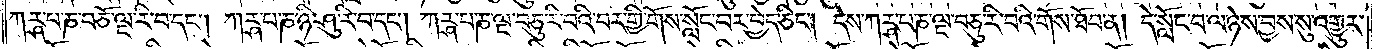ཀཪྴ་པ་ཎ་བཅོ་ལྔ་རི་བ་དང༌། ཀཪྴ་པ་ཎ་ཉི་ཤུ་རི་བ་དང༌། ཀཪྴ་པ་ཎ་ལྔ་བཅུ་རི་བའི་བར་གྱི་གོས་སློང་བར་བྱེད་ཅིང༌། དེས་ཀཪྴ་པ་ཎ་ལྔ་བཅུ་རི་བའི་གོས་ཐོབ་ན། དེ་སློང་བ་ལ་ཉེས་བྱས་སུ་འགྱུར་
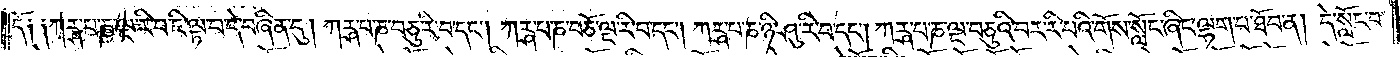དོ༑ ༑ཀཪྴ་པ་ཎ་ལྔ་རི་བ་ཇི་ལྟ་བ་དེ་བཞིན་དུ། ཀཪྴ་པ་ཎ་བཅུ་རི་བ་དང༌། ཀཪྴ་པ་ཎ་བཅོ་ལྔ་རི་བ་དང༌། ཀཪྴ་པ་ཎ་ཉི་ཤུ་རི་བ་དང༌། ཀཪྴ་པ་ཎ་ལྔ་བཅུའི་བར་རི་བའི་གོས་སློང་ཞིང་ལྷག་པ་ཐོབ་ན། དེ་སློང་བ་
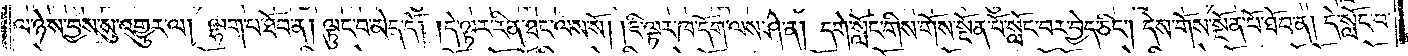ལ་ཉེས་བྱས་སུ་འགྱུར་ལ། ལྷག་པ་ཐོབ་ན། ལྟུང་བ་མེད་དོ། །དེ་ལྟར་རིན་ཐང་ལས་སོ། །ཇི་ལྟར་ཁ་དོག་ལས་ཤེ་ན། དགེ་སློང་གིས་གོས་སྔོན་པོ་སློང་བར་བྱེད་ཅིང༌། དེས་གོས་སྔོན་པོ་ཐོབ་ན། དེ་སློང་བ་
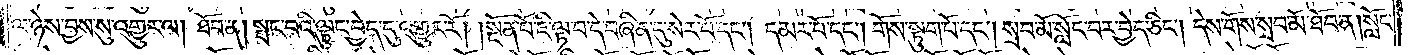ལ་ཉེས་བྱས་སུ་འགྱུར་ལ། ཐོབ་ན། སྤང་བའི་ལྟུང་བྱེད་དུ་འགྱུར་རོ། །སྔོན་པོ་ཇི་ལྟ་བ་དེ་བཞིན་དུ་སེར་པོ་དང༌། དམར་པོ་དང༌། གོས་སྟུག་པོ་དང༌། སྲབ་མོ་སློང་བར་བྱེད་ཅིང༌། དེས་གོས་སྲབ་མོ་ཐོབ་ན། སློང་
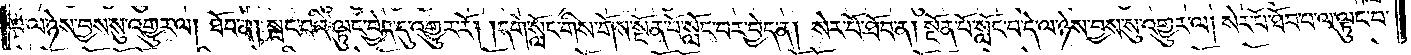བ་ལ་ཉེས་བྱས་སུ་འགྱུར་ལ། ཐོབ་ན། སྤང་བའི་ལྟུང་བྱེད་དུ་འགྱུར་རོ། །དགེ་སློང་གིས་གོས་སྔོན་པོ་སློང་བར་བྱེད་ན། སེར་པོ་ཐོབ་ན། སྔོན་པོ་སློང་བ་དེ་ལ་ཉེས་བྱས་སུ་འགྱུར་ལ། སེར་པོ་ཐོབ་པ་ལ་ལྟུང་བ་
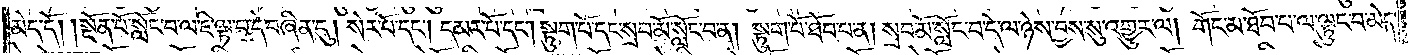མེད་དོ། །སྔོན་པོ་སློང་བ་ལ་ཇི་ལྟ་བ་དེ་བཞིན་དུ། སེར་པོ་དང༌། དམར་པོ་དང༌། སྟུག་པོ་དང་སྲབ་མོ་སློང་བ་ན། སྟུག་པོ་ཐོབ་པ་ན། སྲབ་མོ་སློང་བ་དེ་ལ་ཉེས་བྱས་སུ་འགྱུར་ལ། གོང་མ་ཐོབ་པ་ལ་ལྟུང་བ་མེད་
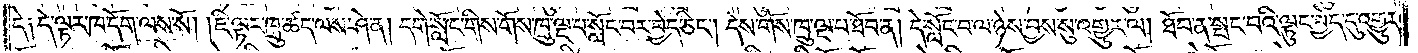དོ༑ དེ་ལྟར་ཁ་དོག་ལས་སོ། །ཇི་ལྟར་ཁྲུ་ཚད་ལས་ཤེ་ན། དགེ་སློང་གིས་གོས་ཁྲུ་ལྔ་པ་སློང་བར་བྱེད་ཅིང༌། དེས་གོས་ཁྲུ་ལྔ་པ་ཐོབ་ན། དེ་སློང་བ་ལ་ཉེས་བྱས་སུ་འགྱུར་ལ། ཐོབ་ན་སྤང་བའི་ལྟུང་བྱེད་དུ་འགྱུར་
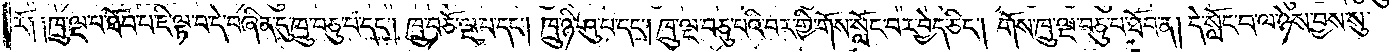རོ༑ ༑ཁྲུ་ལྔ་པ་ཐོབ་པ་ཇི་ལྟ་བ་དེ་བཞིན་དུ་ཁྲུ་བཅུ་པ་དང༌། ཁྲུ་བཅོ་ལྔ་པ་དང༌། ཁྲུ་ཉི་ཤུ་པ་དང༌། ཁྲུ་ལྔ་བཅུ་པའི་བར་གྱི་གོས་སློང་བར་བྱེད་ཅིང༌། གོས་ཁྲུ་ལྔ་བཅུ་པ་ཐོབ་ན། དེ་སློང་བ་ལ་ཉེས་བྱས་སུ་
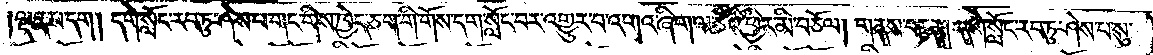ལྡན་པ་དག། དགེ་སློང་རབ་ཏུ་ཤེས་པ་གང་གིས་ཁྱེད་ཅག་གི་གོས་དག་སློང་བར་འགྱུར་བ་འགའ་ཞིག་ལ་ཅིའི་ཕྱིར་མི་བཅོལ། གནས་བརྟན། དགེ་སློང་རབ་ཏུ་ཤེས་པ་སུ་
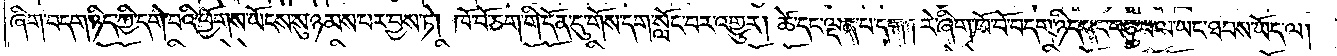ཞིག་བདག་ཉིད་ཀྱི་དགེ་བའི་ཕྱོགས་སུ་ཉམས་པར་བྱས་ཏེ། ཁོ་བོ་ཅག་གི་དོན་དུ་གོས་དག་སློང་བར་འགྱུར། ཚེ་དང་ལྡན་པ་དག། རེ་ཞིག་ཁོ་བོ་བདག་ཉིད་དང་བཅུ་པ་ལ་ཡང་ཐབས་ཡོད་ལ།
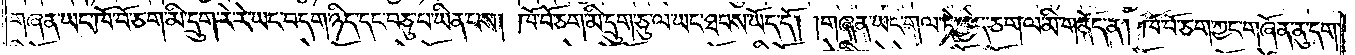གཞན་ཡང་ཁོ་བོ་ཅག་མི་དྲུག་རེ་རེ་ཡང་བདག་ཉིད་དང་བཅུ་པ་ཡིན་པས། ཁོ་བོ་ཅག་མི་དྲུག་ཅུ་ལ་ཡང་ཐབས་ཡོད་དོ། །གཞན་ཡང་གལ་ཏེ་ཁྱེད་ཅག་ལ་མི་གནོད་ན། ཁོ་བོ་ཅག་ཀྱང་གཞོན་ནུ་དག་
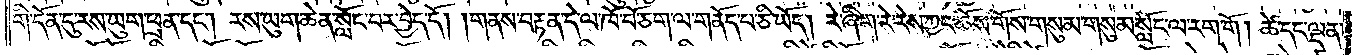གི་དོན་དུ་རས་ཡུག་ཕྲན་དང༌། རས་ཡུག་ཆེན་སློང་བར་བྱེད་དོ། །གནས་བརྟན་དེ་ལ་ཁོ་བོ་ཅག་ལ་གནོད་པ་ཅི་ཡོད། རེ་ཞིག་རེ་རེས་ཀྱང་ཆོས་གོས་གསུམ་གསུམ་སློང་ལ་རག་གོ། ཚེ་དང་ལྡན་
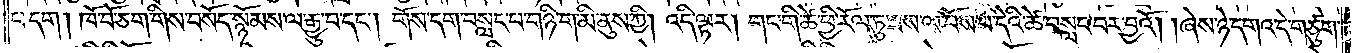པ་དག། ཁོ་བོ་ཅག་གིས་བསོད་སྙོམས་ལ་རྒྱུ་བ་དང༌། གོས་དག་བསླང་བ་གཉི་ག་མི་ནུས་ཀྱི། འདི་ལྟར། གང་གི་ཚེ་ཕྱི་རོལ་ཏུ་ཟས་ལ་བོས་པ་དེའི་ཚེ་བསླང་བར་བྱའོ། །ཞེས་ཉེ་དགའ་དེ་གཙུག་
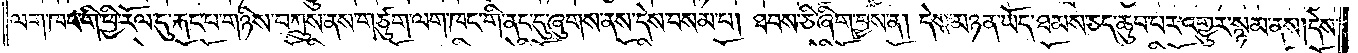ལག་ཁང་གི་ཕྱི་རོལ་དུ་རྐང་པ་གཉིས་བཀྲུས་ནས་གཙུག་ལག་ཁང་གི་ནང་དུ་ཞུགས་ནས་དེས་བསམ་པ། ཐབས་ཅི་ཞིག་བྱས་ན། དེས་མཉན་ཡོད་ཐམས་ཅད་ཆུབ་པར་འགྱུར་སྙམ་ནས། དེས་
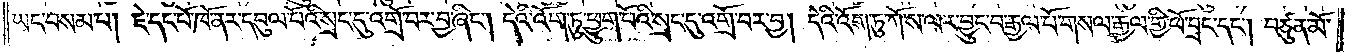ཡང་བསམ་པ། ཇེ་དང་པོ་ཁོ་ནར་དབུལ་པོའི་སྲང་དུ་འགྲོ་བར་བྱ་ཞིང༌། དེའི་འོག་ཏུ་ཕྱུག་པོའི་སྲང་དུ་འགྲོ་བར་བྱ། དེའི་འོག་ཏུ་ཀོ་ས་ལར་བྱུང་བ་རྒྱལ་པོ་གསལ་རྒྱལ་གྱི་ཕོ་བྲང་དང༌། བཙུན་མོ་
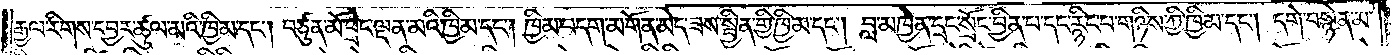རྒྱལ་རིགས་དབྱར་ཚུལ་མའི་ཁྱིམ་དང༌། བཙུན་མོ་ཕྲེང་ལྡན་མའི་ཁྱིམ་དང༌། ཁྱིམ་བདག་མགོན་མེད་ཟས་སྦྱིན་གྱི་ཁྱིམ་དང༌། བླ་མཁྱེན་དྲང་སྲོང་བྱིན་པ་དང་རྙིང་པ་གཉིས་ཀྱི་ཁྱིམ་དང༌། དགེ་བསྙེན་མ་
